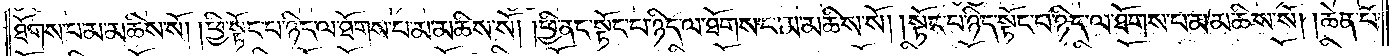ཐོགས་པ་མ་མཆིས་སོ། །ཕྱི་སྟོང་པ་ཉིད་ལ་ཐོགས་པ་མ་མཆིས་སོ། །ཕྱི་ནང་སྟོང་པ་ཉིད་ལ་ཐོགས་པ་མ་མཆིས་སོ། སྟོང་པ་ཉིད་སྟོང་པ་ཉིད་ལ་ཐོགས་པ་མ་མཆིས་སོ། །ཆེན་པོ་
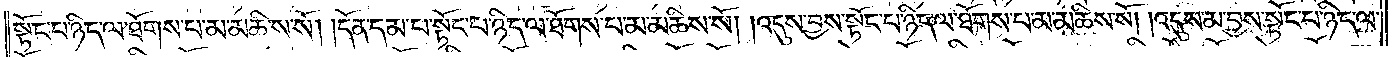སྟོང་པ་ཉིད་ལ་ཐོགས་པ་མ་མཆིས་སོ། །དོན་དམ་པ་སྟོང་པ་ཉིད་ལ་ཐོགས་པ་མ་མཆིས་སོ། །འདུས་བྱས་སྟོང་པ་ཉིད་ལ་ཐོགས་པ་མ་མཆིས་སོ། །འདུས་མ་བྱས་སྟོང་པ་ཉིད་ལ་
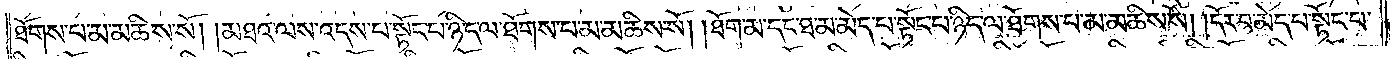ཐོགས་པ་མ་མཆིས་སོ། །མཐའ་ལས་འདས་པ་སྟོང་པ་ཉིད་ལ་ཐོགས་པ་མ་མཆིས་སོ། །ཐོག་མ་དང་ཐ་མ་མེད་པ་སྟོང་པ་ཉིད་ལ་ཐོགས་པ་མ་མཆིས་སོ། །དོར་བ་མེད་པ་སྟོང་པ་
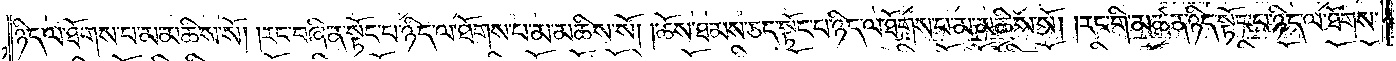ཉིད་ལ་ཐོགས་པ་མ་མཆིས་སོ། །རང་བཞིན་སྟོང་པ་ཉིད་ལ་ཐོགས་པ་མ་མཆིས་སོ། །ཆོས་ཐམས་ཅད་སྟོང་པ་ཉིད་ལ་ཐོགས་པ་མ་མཆིས་སོ། །རང་གི་མཚན་ཉིད་སྟོང་པ་ཉིད་ལ་ཐོགས་
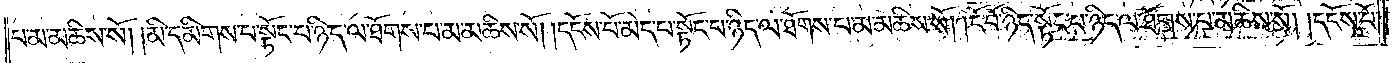པ་མ་མཆིས་སོ། །མི་དམིགས་པ་སྟོང་པ་ཉིད་ལ་ཐོགས་པ་མ་མཆིས་སོ། །དངོས་པོ་མེད་པ་སྟོང་པ་ཉིད་ལ་ཐོགས་པ་མ་མཆིས་སོ། །ངོ་བོ་ཉིད་སྟོང་པ་ཉིད་ལ་ཐོགས་པ་མ་མཆིས་སོ། །དངོས་པོ་
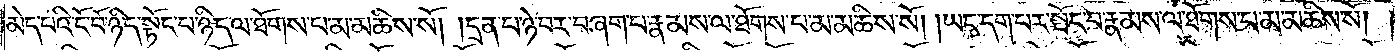མེད་པའི་ངོ་བོ་ཉིད་སྟོང་པ་ཉིད་ལ་ཐོགས་པ་མ་མཆིས་སོ། །དྲན་པ་ཉེ་བར་བཞག་པ་རྣམས་ལ་ཐོགས་པ་མ་མཆིས་སོ། །ཡང་དག་པར་སྤོང་བ་རྣམས་ལ་ཐོགས་པ་མ་མཆིས་སོ། །
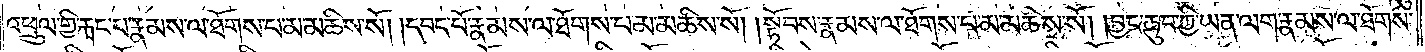འཕྲུལ་གྱི་རྐང་པ་རྣམས་ལ་ཐོགས་པ་མ་མཆིས་སོ། །དབང་པོ་རྣམས་ལ་ཐོགས་པ་མ་མཆིས་སོ། །སྟོབས་རྣམས་ལ་ཐོགས་པ་མ་མཆིས་སོ། །བྱང་ཆུབ་ཀྱི་ཡན་ལག་རྣམས་ལ་ཐོགས་
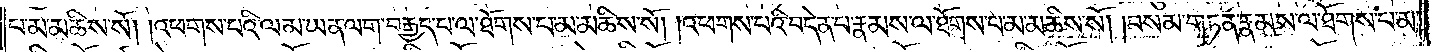པ་མ་མཆིས་སོ། །འཕགས་པའི་ལམ་ཡན་ལག་བརྒྱད་པ་ལ་ཐོགས་པ་མ་མཆིས་སོ། །འཕགས་པའི་བདེན་པ་རྣམས་ལ་ཐོགས་པ་མ་མཆིས་སོ། །བསམ་གཏན་རྣམས་ལ་ཐོགས་པ་མ་
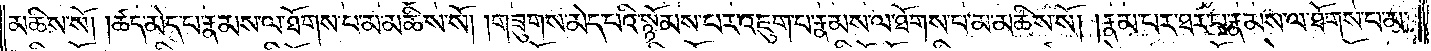མཆིས་སོ། །ཚད་མེད་པ་རྣམས་ལ་ཐོགས་པ་མ་མཆིས་སོ། །གཟུགས་མེད་པའི་སྙོམས་པར་འཇུག་པ་རྣམས་ལ་ཐོགས་པ་མ་མཆིས་སོ། །རྣམ་པར་ཐར་པ་རྣམས་ལ་ཐོགས་པ་མ་
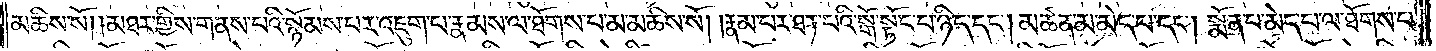མཆིས་སོ། །མཐར་གྱིས་གནས་པའི་སྙོམས་པར་འཇུག་པ་རྣམས་ལ་ཐོགས་པ་མ་མཆིས་སོ། །རྣམ་པར་ཐར་པའི་སྒོ་སྟོང་པ་ཉིད་དང༌། མཚན་མ་མེད་པ་དང༌། སྨོན་པ་མེད་པ་ལ་ཐོགས་པ་
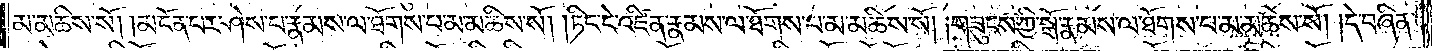མ་མཆིས་སོ། །མངོན་པར་ཤེས་པ་རྣམས་ལ་ཐོགས་པ་མ་མཆིས་སོ། །ཏིང་ངེ་འཛིན་རྣམས་ལ་ཐོགས་པ་མ་མཆིས་སོ། །གཟུངས་ཀྱི་སྒོ་རྣམས་ལ་ཐོགས་པ་མ་མཆིས་སོ། །དེ་བཞིན་
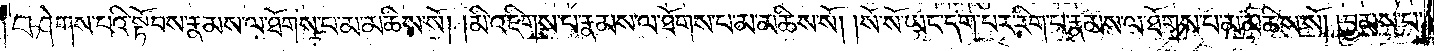གཤེགས་པའི་སྟོབས་རྣམས་ལ་ཐོགས་པ་མ་མཆིས་སོ། །མི་འཇིགས་པ་རྣམས་ལ་ཐོགས་པ་མ་མཆིས་སོ། །སོ་སོ་ཡང་དག་པར་རིག་པ་རྣམས་ལ་ཐོགས་པ་མ་མཆིས་སོ། །བྱམས་པ་
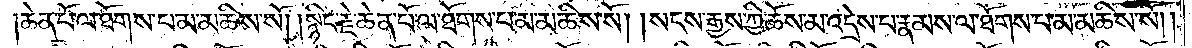ཆེན་པོ་ལ་ཐོགས་པ་མ་མཆིས་སོ། །སྙིང་རྗེ་ཆེན་པོ་ལ་ཐོགས་པ་མ་མཆིས་སོ། །སངས་རྒྱས་ཀྱི་ཆོས་མ་འདྲེས་པ་རྣམས་ལ་ཐོགས་པ་མ་མཆིས་སོ། །
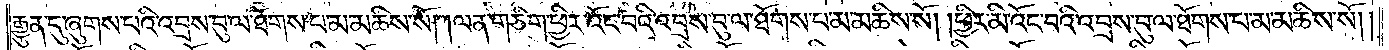རྒྱུན་དུ་ཞུགས་པའི་འབྲས་བུ་ལ་ཐོགས་པ་མ་མཆིས་སོ། །ལན་གཅིག་ཕྱིར་འོང་བའི་འབྲས་བུ་ལ་ཐོགས་པ་མ་མཆིས་སོ། །ཕྱིར་མི་འོང་བའི་འབྲས་བུ་ལ་ཐོགས་པ་མ་མཆིས་སོ། །
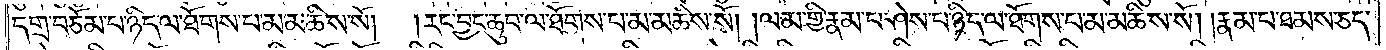དགྲ་བཅོམ་པ་ཉིད་ལ་ཐོགས་པ་མ་མཆིས་སོ། །རང་བྱང་ཆུབ་ལ་ཐོགས་པ་མ་མཆིས་སོ། །ལམ་གྱི་རྣམ་པ་ཤེས་པ་ཉིད་ལ་ཐོགས་པ་མ་མཆིས་སོ། །རྣམ་པ་ཐམས་ཅད་
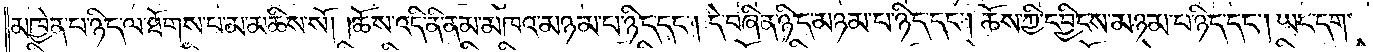མཁྱེན་པ་ཉིད་ལ་ཐོགས་པ་མ་མཆིས་སོ། །ཆོས་འདི་ནི་ནམ་མཁའ་མཉམ་པ་ཉིད་དང༌། དེ་བཞིན་ཉིད་མཉམ་པ་ཉིད་དང༌། ཆོས་ཀྱི་དབྱིངས་མཉམ་པ་ཉིད་དང༌། ཡང་དག་
